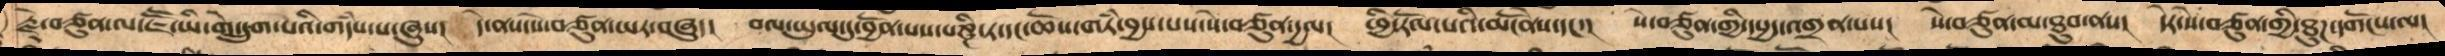རྗེ་བཙུན་ལ་ཇཽ་ཡི་གེ་དྲུག་པའི་གདཾས་པ་ཞུས།   དེ་ནས་སོ་བཙུན་ཡར་བཞུད།    བལ་ཡུལ་དུ་བྱོན་པས་པཎྜི་ཏ་དང་ཆོས་གཏཾ་བྱས་པས་སེ་བཙུན་དྱལ།   ཕྱི་རོལ་པའི་མངོནེས་དང་།   སེ་བཙུན་གྱི་དཔྱད་འགྲན་པས།   སེ་བཙུན་མ་ཐུབ་ནས།  དེར་སེ་བཙུན་གྱི་ཐུཌ་དགོངས་ལ།
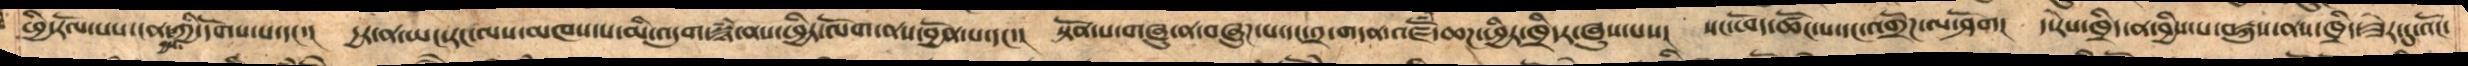ཕྱི་རོལ་པས་ངན་བྱས་ཀྱི་དོགས་པ་དང་།    དྱར་ན་ཡང་རང་ལས་མཁས་པ་མི་འདུག་སྙཾ་ནས་ཕྱིར་ལོག་ནས་བྱོན་པ་དང་།    སྟོན་པ་གཞུ་ན་བཞུཌ་པ་དང་༢་གདན་འཛོཾ་ཆཌ་ཕྱིར་ཁྲིདར་ཞུས་པས།   སང་ཕོད་ཚོང་པ་དང་འགྲོཌ་ལ་ཤོག།    ད་རེས་ཁྲིད་ན་བྱིས་པ་བརྐུས་ནས་ཁྲིད་ཟེར་དུ་འོང་
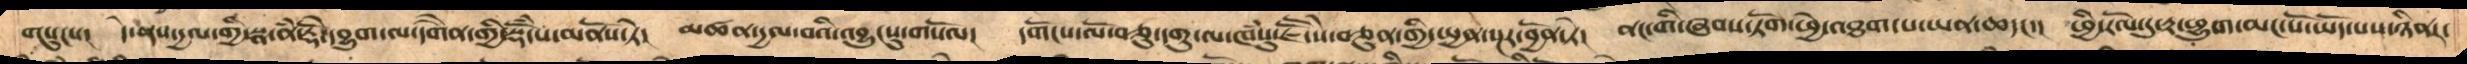གསུངས།    དེ་ནས་དྱལ་གྱི་ཞང་སྣ་ནཾ་རྡོེ་དབྱུག་ལ་དགཻན་གྱི་སྡོཾ་པ་མནོས་ཏེ།   མཚན་དྱལ་བའི་འབྱུངསུ་གསོལ།   དགོང་ལོ་བཅུ་དགུ་ལ་ཁཾསུ་ཇཽ་སེ་བཙུན་གྱི་སྤྱན་སྔར་བྱོན་ཏེ།  ནང་གི་ཞབས་ཏོག་ཕྱེ་འཐག་པ་ཡན་ཆད།་།   ཕྱི་རོལ་དུ་རྟ་ཕྱུག་མང་པོ་ཡོད་པས་ཉིནར་
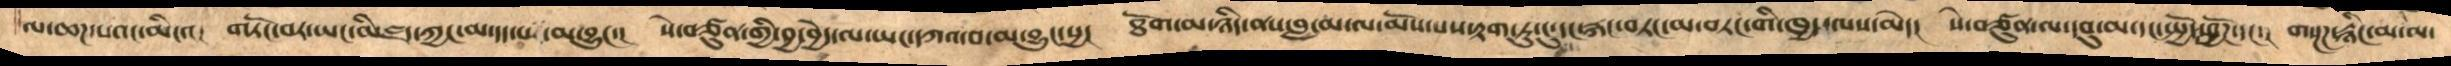ལ་ཆཌ་པའང་མིངའ།   གཏོང་བར་ཡང་མི་མཛད་ཀྱང་མ་དད་པ་མ་བྱུང་།    སེ་བཙུན་གྱི་བྱ་བྱེད་ལ་ཡང་དཀའ་བ་མ་བྱུང་སྱ།  ཐོག་མ་ཉིད་ནས་བླ་མ་ལ་མོས་པས་རྟག་ཏུ་ངུ་དང་རྐང་བཏང་མ་བཏང་གི་ཁྱད་ལས་མེད།    སེ་བཙུན་ལ་དབུ་མ་དང་སྤྱོད་ཕྱོཌ་དང་།   གསྔཾཌ་རྙིང་མ་ལ་
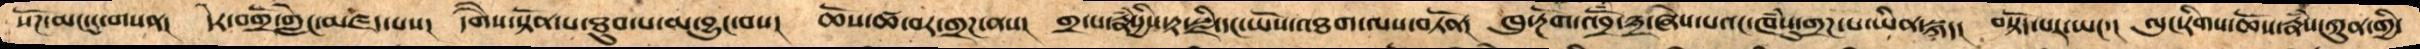སོཌ་མང་དུ་གསན།   དེར་བགྲོ་གླེང་མཛད་པས།   དགཻས་སྟོན་པ་ཐུབ་པ་མ་བྱུང་བས།  ཆོས་ཚ་བར་གྲཌ་ནས།   གྲྭ་པ་རྣཾསྱིས་རྟ་སྫི་དང་ཡོས་འཐག་ལས་བཏོན།   ཁུ་རྔོག་འབྲོཾ་༣་ཞེས་པའང་ཁཾསུ་གྲཌ་པ་ཡིན་སྐད།  བསྟོད་པར་ཡང་།  ལུང་རིགས་ཆོས་རྣཾས་ཀུན་གྱི་
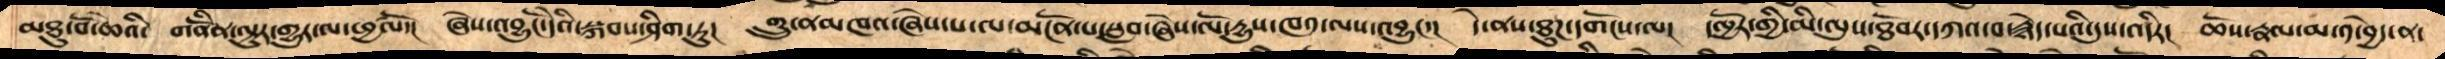མཐུ་བོ་ཆེའི།  གནོིན་ལྟུར་གྱུར་ལ་ཕྱཚལོ་།   ཞེས་འབྱུངོ་དེའི་སྐབས་ཤིག་ཏུ།   གྲུ་ནམ་མཁའ་ཞེས་པ་ལ་མངོན་པ་སླབ་ཞེས་ལོ་དྱུས་ཁ༡་ལས་འབྱུང་།   དེ་ནས་ཐུཌ་དགོངས་ལ།   དལྱོར་གྱི་མི་ལུས་ཐོབར་དཀའ་བ་རྙེད་པའི་དུས་འདིར།   ཆོས་རྣལ་མ་༡་བྱེད་ན་
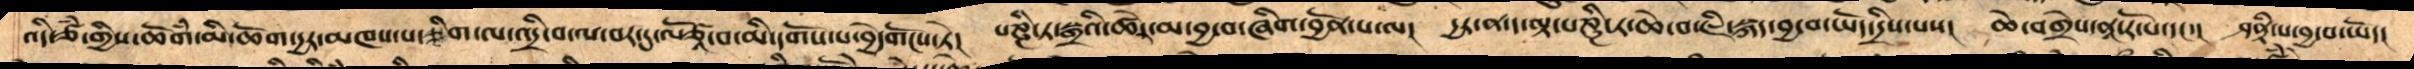འདི་ཙཾ་གྱིས་ཆོགཾ་མི་ཆོག་དྱར་མཁས་པ་ཅིག་ལ་འདྲི་བ་ལ་བར་དུ་ལོཙཱ་བ་མི་དགོས་པ་བྱེདགོངས་ཏེ།   པཎྜི་ཏ་སྒྲའི་ཚེར་མ་བྱ་བ་ཞིག་བྱོན་པ་ལ།   དྱར་ན་ད་ལྟ་པཎྜི་ཏཆེ་བ་ཇི་སྐད་བྱ་བ་ཡོད་དྲིས་པས།   ཆེ་བགྲེས་ནཱ་རོ་པ་དང་།  ཤནྟི་པ་བྱ་བ་ཡོད་
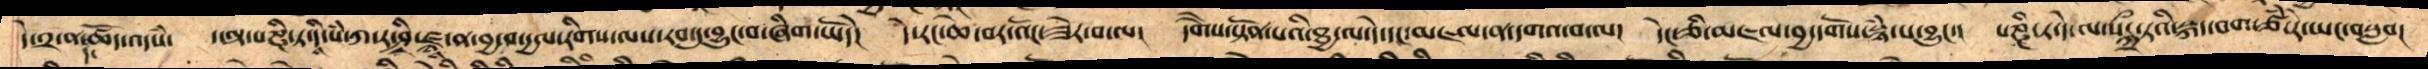དེ་༢་ན་དང་ཆོད་འདསཾ་   ད་ལྟ་པཎྜི་ཏ་དི་པཾ་ཀ་ར་ཤྲི་ཛྙཱ་ན་བྱ་བ་དྱལ་རིགས་ལས་རབ་དུ་བྱུང་བ་ཞིག་ཡོདེ།    དེ་རང་ཆེ་བར་འོང་ཟེར་བ་ལ།   དགཻས་སྟོན་པའི་ཐྱ་ལ་དེ་དང་མཇལ་ན་དགའ་བ་ལ།   དེང་ཅི་མཇལ་བྱ་དགོས་སྙཾ་པ་བྱུང་།  པཎྜི་ཏ་དེ་ལ་སྀངཀྲ་ཏའི་སྐད་བག་ཙཾ་རེ་ཡང་བསླབ།
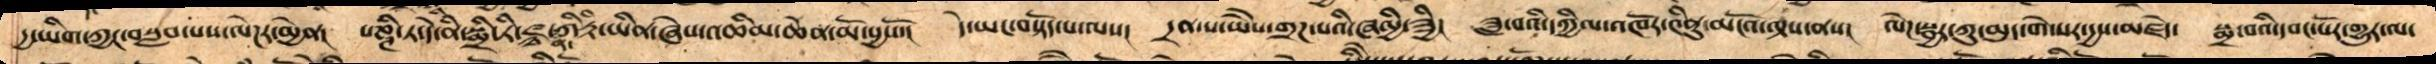དྱ་ཡིན་ཀྱང་བསླབ་པས་ལེཌར་མྱེན།    པཎྜི་ཏ་དེ་ནི་སྨྲི་ཏི་ཛྙ་ན་ཀིརྟི་ཡིན་ཞེས་འཆིམ་ཆེན་མོ་སྱསོ་།   དེ་ཡང་བསྟོད་པ་ལས།   དྲན་པ་ཡཻས་གྲཌ་པའི་ཞལྱི་ཟྱི།     ཟླ་བའི་དཀྱིལ་འཁོར་༤ིནུ་མངོའ་ལྟས་ནས།     ལེཌ་སྦྱར་ཀུ་མུད་གེ་སར་དྱས་མཛོད་   སྨྲ་བའི་དབང་པོར་གྱུར་ལ་
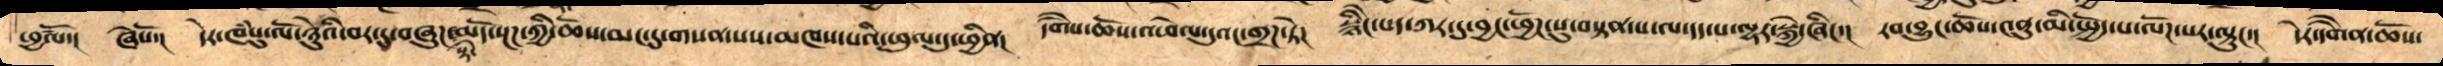ཕྱཚལོ་།    ཞེསོ་།   དེར་ཁཾསུ་ལོ་ཉིུའི་བར་དུ་བཞུགས་སྟེ་མདོ་སྔཌ་ཀྱི་ཆོས་མང་དུ་གསན་པས་མཁས་པའི་ཕུལ་དུ་ཕྱིན།   དགཻས་ཆོས་འཕེལ་དུའང་གྲཌ་ཏེ།   སྙིངེ་པད་ཀར་དུ་བྱང་ཕྱོཌ་སུ་བསྟན་པ་ལ་དད་པ་ལྷར་སྐྱེ་ཞིང་།   རབ་བྱུང་ཆོས་༤ནུ་མི་སྤྱོད་པ་ལོཌ་པར་ལྟུང་།   དེར་དགཻན་ཆོས་
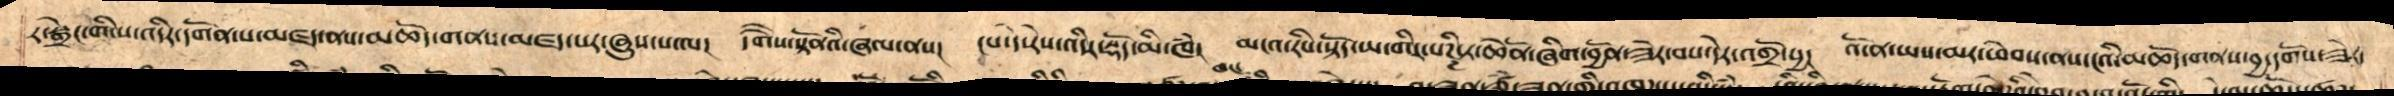ར་སྒྲེང་གིས་འདིར་དགོན་པ་མཛད་ནས་མཆོད་གནས་མཛད་པར་ཞུས་པ་ལས། དགཻས་སྟོནའི་ཞལ་ནས། ངས་དེ་རེས་འདིར་སྡོད་མི་ཁཾ། མངའ་རིས་སྟོད་ཡ་གིར་པཌྚི་ཏ་ཆེནོ་་ཞིག་བྱོན་ཟེར་བས་དེར་འགྲོ་སྱ། འོ་ན་ཡས་མར་ཕེབས་ནས་ངའི་མཆོད་གནས་བྱ་དགོས་ཟེར་
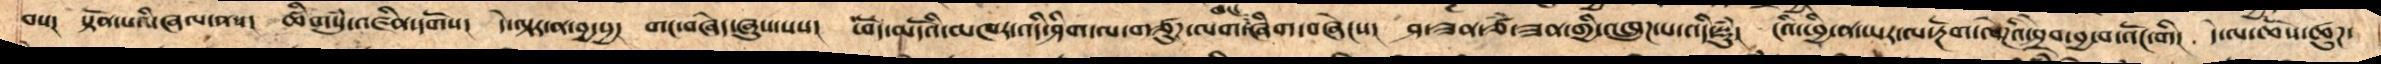བས། སྟོན་པའི་ཞལ་ནས།   ཚིགསུཾ་འཛིན་དགོས།   ཏེ་ལྟར་ན་བྱ་སྱ།   གང་བཞེད་ཞུས་པས།   ཕོད་མདོའི་མཁར་འདི་ཤིག་ལ་གཙུཌ་ལག་ཁང་ཞིག་བཞེངས།   ཤ་ཟན་ཙཾ་ཟན་གྱི་འཁྲུཌ་པ་འདི་སྡུཾ།   ངའི་ཕྱི་ན་ཡར་ལ་རྔོག་ལེཌའི་ཤྲེབ་བྱ་བ་འོང་གི།   དེ་ལ་ཆོས་ཚུཌ་
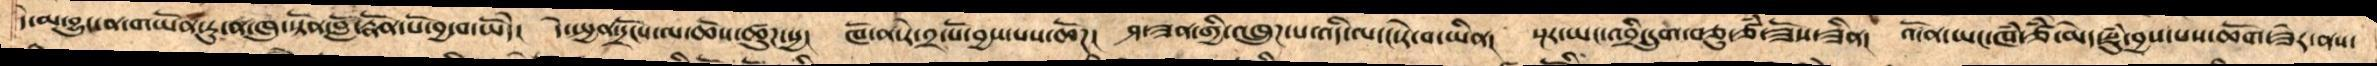དེ་མ་བྱུང་ན་གཡོན་རུ་ན་ཁུ་སྟོན་བློ་རྣོན་པོ་བྱ་བ་ཡོདེ།   དེ་སྤྱན་དྲོངས་ལ་ཆོས་ཚུཌ་སྱ།   ཁོང་ན་རེ་༢་པོ་བྱས་པས་ཆོཌ།   ཤ་ཟན་གྱི་འཁྲུཌ་པ་འདི་ལ་ང་རེ་བ་ཡིན།   སྔར་ཡང་འབྲི་དྲུག་བཅུ་ཙཾ་ཟོས་ཟིན། འོ་ན་ཡང་ཁཾ་ཙཾ་མེད་སྡུཾ་བྱས་པས་ཆོག་ཟེར་ནས་
